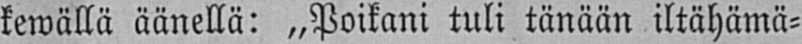kewällä äänellä: „Poikani tuli tänään iltähämä-
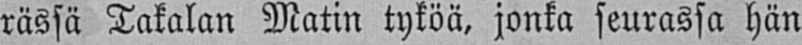rässä Takalan Matin tyköä, jonka seurassa hän
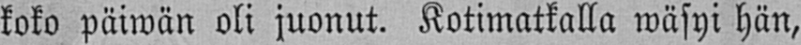koko päiwän oli juonut. Kotimatkalla wäsyi hän,
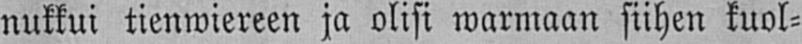nukkui tienwiereen ja olisi warmaan siihen kuol-
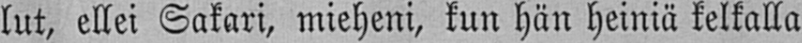lut, ellei Sakari, mieheni, kun hän heiniä kelkalla
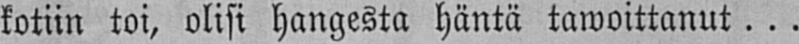kotiin toi, olisi hangesta häntä tawoittanut . . .
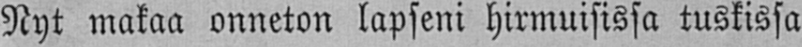Nyt makaa onneton lapseni hirmuisissa tuskissa
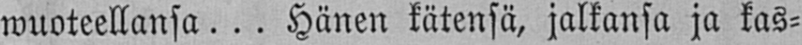wuoteellansa . . . Hänen kätensä, jalkansa ja kas-
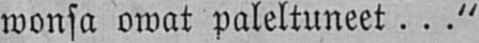wonsa owat paleltuneet . . ."
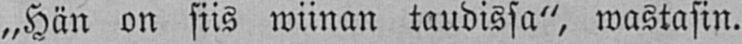„Hän on siis wiinan taudissa", wastasin.
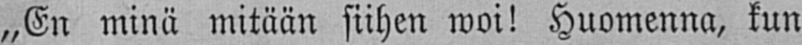„En minä mitään siihen woi! Huomenna, kun
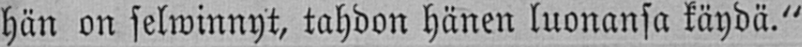hän on selwinnyt, tahdon hänen luonansa käydä."
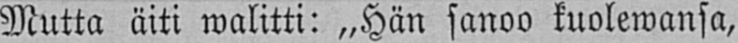Mutta äiti walitti: „Hän sanoo kuolewansa,
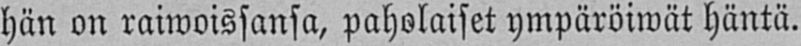hän on raiwoissansa, paholaiset ympäröiwät häntä.
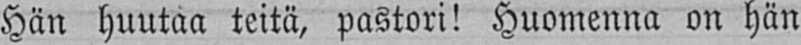Hän huutaa teitä, pastori! Huomenna on hän
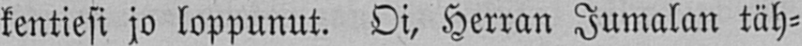kentiesi jo loppunut. Oi, Herran Jumalan täh-
